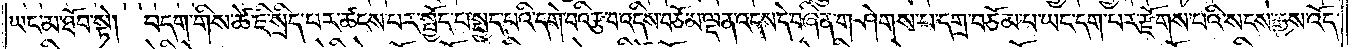ཡང་མ་ཐོབ་སྟེ། བདག་གིས་ཚེ་ཇི་སྲིད་པར་ཚངས་པར་སྤྱོད་པ་སྤྱད་པའི་དགེ་བའི་རྩ་བ་འདིས་བཅོམ་ལྡན་འདས་དེ་བཞིན་གཤེགས་པ་དགྲ་བཅོམ་པ་ཡང་དག་པར་རྫོགས་པའི་སངས་རྒྱས་འོད་
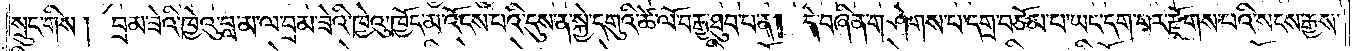སྲུང་གིས། བྲམ་ཟེའི་ཁྱེའུ་བླ་མ་ལ་བྲམ་ཟེའི་ཁྱེའུ་ཁྱོད་མ་འོངས་པའི་དུས་ན་སྐྱེ་དགུའི་ཚེ་ལོ་བརྒྱ་ཐུབ་པ་ན། དེ་བཞིན་གཤེགས་པ་དགྲ་བཅོམ་པ་ཡང་དག་པར་རྫོགས་པའི་སངས་རྒྱས་
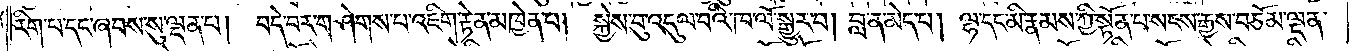རིག་པ་དང་ཞབས་སུ་ལྡན་པ། བདེ་བར་གཤེགས་པ་འཇིག་རྟེན་མཁྱེན་པ། སྐྱེས་བུ་འདུལ་བའི་ཁ་ལོ་སྒྱུར་བ། བླ་ན་མེད་པ། ལྷ་དང་མི་རྣམས་ཀྱི་སྟོན་པ་སངས་རྒྱས་བཅོམ་ལྡན་
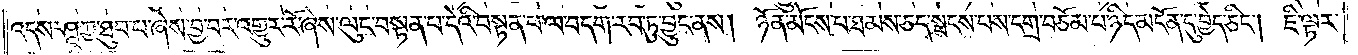འདས་ཤཱཀྱ་ཐུབ་པ་ཞེས་བྱ་བར་འགྱུར་རོ་ཞེས་ལུང་བསྟན་པ་དེའི་བསྟན་པ་ལ་བདག་རབ་ཏུ་བྱུང་ནས། ཉོན་མོངས་པ་ཐམས་ཅད་སྤངས་པས་དགྲ་བཅོམ་པ་ཉིད་མངོན་དུ་བྱེད་ཅིང༌། ཇི་ལྟར་
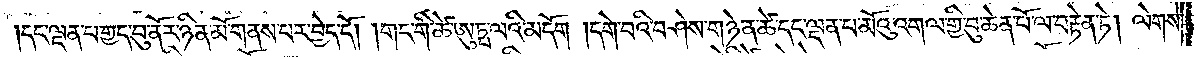།དང་ལྡན་པ་གྱད་བུ་ནོར་ཉིན་མོ་གནས་པར་བྱེད་དོ། །གང་གི་ཚེ་ཨུཏྤ་ལའི་མདོག །དགེ་བའི་བཤེས་གཉེན་ཚེ་དང་ལྡན་པ་མོའུ་འགལ་གྱི་བུ་ཆེན་པོ་ལ་བརྟེན་ཏེ། ལེགས་
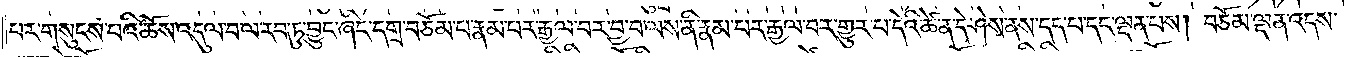པར་གསུངས་པའི་ཆོས་འདུལ་བ་ལ་རབ་ཏུ་བྱུང་ཞིང་དགྲ་བཅོམ་པ་རྣམ་པར་རྒྱལ་བར་བྱ་བ་ལས་ནི་རྣམ་པར་རྒྱལ་བར་གྱུར་པ་དེའི་ཚེ་ན་དེ་ཤེས་ནས་དད་པ་དང་ལྡན་པས། བཅོམ་ལྡན་འདས་
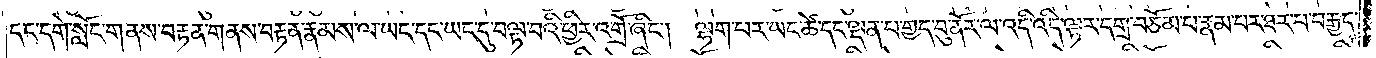དང་དགེ་སློང་གནས་བརྟན་གནས་བརྟན་རྣམས་ལ་ཡང་དང་ཡང་དུ་བལྟ་བའི་ཕྱིར་འགྲོ་ཞིང༌། ལྷག་པར་ཡང་ཚེ་དང་ལྡན་པ་གྱད་བུ་ནོར་ལ་འདི་འདི་ལྟར་དགྲ་བཅོམ་པ་རྣམ་པར་ཐར་པ་བརྒྱད་
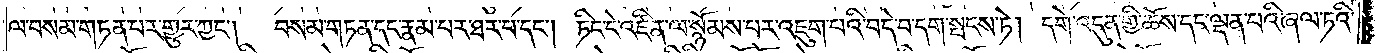ལ་བསམ་གཏན་པར་གྱུར་ཀྱང༌།     བསམ་གཏན་དང་རྣམ་པར་ཐར་པ་དང༌། ཏིང་ངེ་འཛིན་ལ་སྙོམས་པར་འཇུག་པའི་བདེ་བ་དག་སྤངས་ཏེ། དགེ་འདུན་གྱི་ཆོས་དང་ལྡན་པའི་ཞལ་ཏའི་
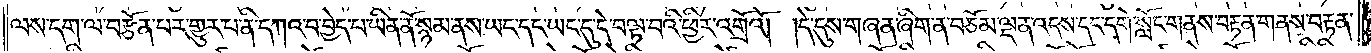ལས་དག་ལ་བརྩོན་པར་གྱུར་པ་ནི་དཀའ་བ་བྱེད་པ་ཡིན་ནོ་སྙམ་ནས་ཡང་དང་ཡང་དུ་དེ་བལྟ་བའི་ཕྱིར་འགྲོའོ། །དེ་དུས་གཞན་ཞིག་ན་བཅོམ་ལྡན་འདས་དང་དགེ་སློང་གནས་བརྟན་གནས་བརྟན་
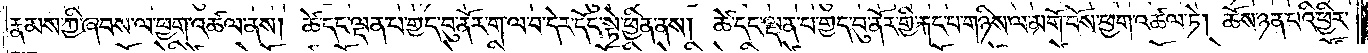རྣམས་ཀྱི་ཞབས་ལ་ཕྱག་འཚལ་ནས། ཚེ་དང་ལྡན་པ་གྱད་བུ་ནོར་ག་ལ་བ་དེར་དོང་སྟེ་ཕྱིན་ནས། ཚེ་དང་ལྡན་པ་གྱད་བུ་ནོར་གྱི་རྐང་པ་གཉིས་ལ་མགོ་བོས་ཕྱག་འཚལ་ཏེ། ཆོས་ཉན་པའི་ཕྱིར་
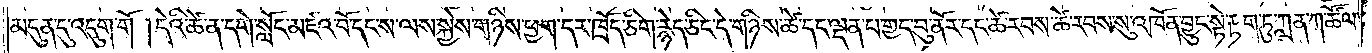མདུན་དུ་འདུག་གོ །དེའི་ཚེ་ན་དགེ་སློང་མཛའ་བོ་དང་ས་ལས་སྐྱེས་གཉིས་ཕྱག་དར་ཁྲོད་ཅིག་རྙེད་ཅིང་དེ་གཉིས་ཚེ་དང་ལྡན་པ་གྱད་བུ་ནོར་དང་ཚེ་རབས་ཚེ་རབས་སུ་འཁོན་བྱུང་སྟེ་རྟག་ཏུ་ཀླན་ཀ་ཚོལ་
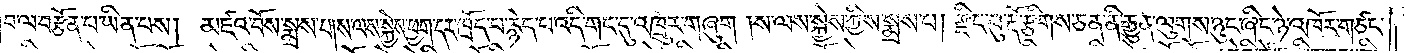བ་ལ་བརྩོན་པ་ཡིན་པས། མཛའ་བོས་སྨྲས་པ། ས་ལས་སྐྱེས་ཕྱག་དར་ཁྲོད་པ་རྙེད་པ་འདི་གང་དུ་འཁྲུར་གཞུག །ས་ལས་སྐྱེས་ཀྱིས་སྨྲས་པ། རྫིང་བུ་རྡོ་རྩིགས་ཅན་ནི་རྒྱུན་ལུགས་ཉུང་ཞིང་ཉེ་འཁོར་གཙང་
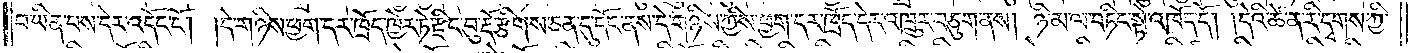བ་ཡིན་པས་དེར་འདོང་ངོ༌། །དེ་གཉིས་ཕྱག་དར་ཁྲོད་ཁྱེར་ཏེ་རྫིང་བུ་རྡོ་རྩིགས་ཅན་དུ་དོང་ནས་དེ་གཉིས་ཀྱིས་ཕྱག་དར་ཁྲོད་དེར་འཁྲུར་བཅུག་ནས། ཉི་མ་ལ་བཏིང་སྟེ་འཁོད་དོ། །དེའི་ཚེ་ན་རི་དྭགས་ཀྱི་
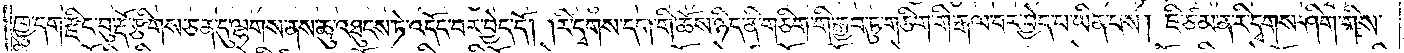ཁྱུ་དག་རྫིང་བུ་རྡོ་རྩིགས་ཅན་དུ་ལྷགས་ནས་ཆུ་འཐུངས་ཏེ་འདོང་བར་བྱེད་དོ། །རི་དྭགས་དག་གི་ཆོས་ཉིད་ནི་གཅིག་གི་རྒྱབ་ཏུ་གཅིག་གི་རྒལ་བར་བྱེད་པ་ཡིན་པས། ཇི་ཙམ་ན་རི་དྭགས་ཤིག་གིས་
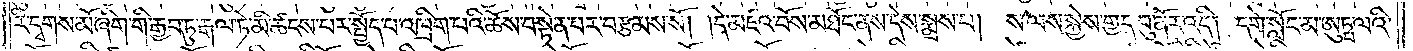རི་དྭགས་མོ་ཞིག་གི་རྒྱབ་ཏུ་རྒལ་ཏེ་མི་ཚངས་པར་སྤྱོད་པ་འཁྲིག་པའི་ཆོས་བསྟེན་པར་བརྩམས་སོ། །དེ་མཛའ་བོས་མཐོང་ནས་དེས་སྨྲས་པ། ས་ལས་སྐྱེས་གྱད་བུ་ནོར་འདི། དགེ་སློང་མ་ཨུཏྤ་ལའི་
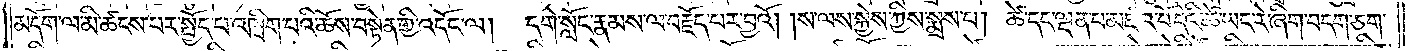མདོག་ལ་མི་ཚངས་པར་སྤྱོད་པ་འཁྲིག་པའི་ཆོས་བསྟེན་གྱི་འདོང་ལ། དགེ་སློང་རྣམས་ལ་བརྗོད་པར་བྱའོ། །ས་ལས་སྐྱེས་ཀྱིས་སྨྲས་པ། ཚེ་དང་ལྡན་པ་མཛའ་བོ་དེའི་ཚེ་ཡང་རེ་ཞིག་བདག་ཅག་
